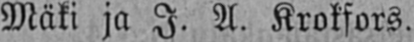Mäki ja I. A. Krokfors.
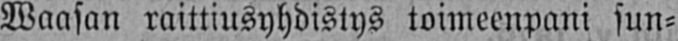Waasan raittiusyhdistys toimeenpani sun-
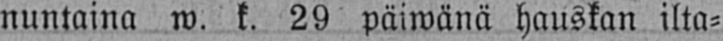nuntaina w. k. 29 päiwänä hauskan ilta-
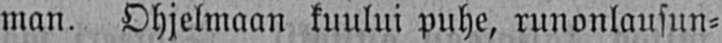man. Ohjelmaan kuului puhe, runonlausun-
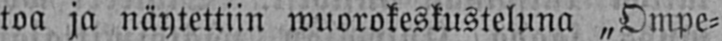toa ja näytettiin wuorokeskusteluna ˶Ompe-
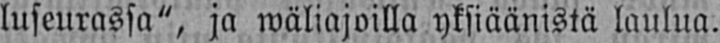luseurassa", ja wäliajoilla yksiäänistä laulua.
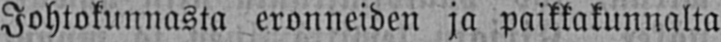Johtokunnasta eronneiden ja paikkakunnalta
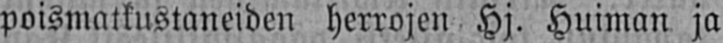poismatkustaneiden herrojen Hj. Huiman ja
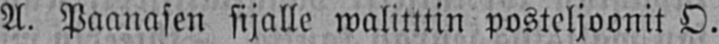A. Paanasen sijalle walitttin posteljoonit O.
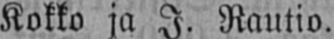Kokko ja I. Rautio.
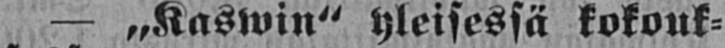— „Kaswin" yleisessä kokouk-
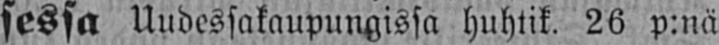sessa Uudessakaupungissa huhtik. 26 p:nä
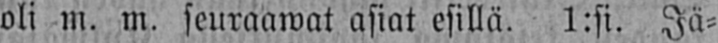oli m. m. seuraawat asiat esillä. 1:si. Jä-
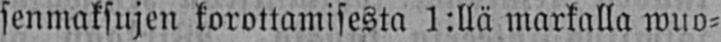senmaksujen korottamisesta 1:llä markalla wuo-
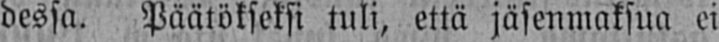dessa. Päätökseksi tuli, että jäsenmaksua ei
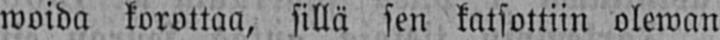woida korottaa, sillä sen katsottiin olewan
